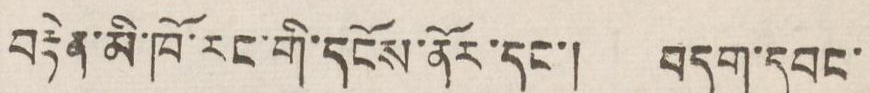བརྟེན་མི་ཁོ་རང་གི་དངོས་ནོར་དང་། བདག་དབང་
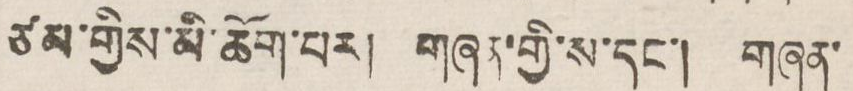ཙམ་གྱིས་མི་ཆོག་པར། གཞན་གྱི་ས་དང་། གཞན་
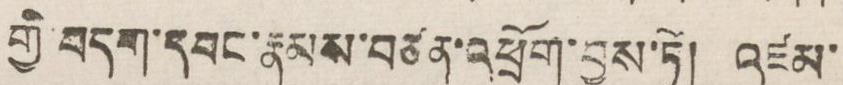གྱི བདག་དབང་རྣམས་བཙན་འཕྲོག་བྱས་ཏེ། འཛམ་
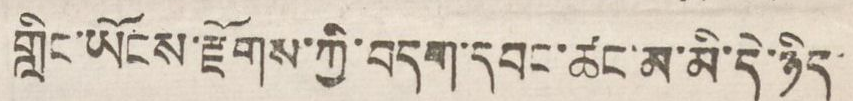གླིང་ཡོངས་རྫོགས་ཀྱི་བདག་དབང་ཚང་མ་མི་དེ་ཉིད་
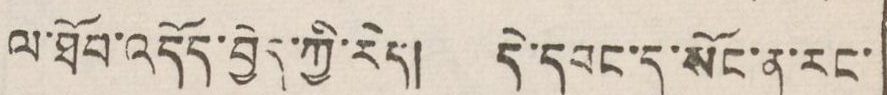ལ་ཐོབ་འདོད་བྱེད་ཀྱི་རེད། དེ་དབང་དུ་སོང་ན་རང་
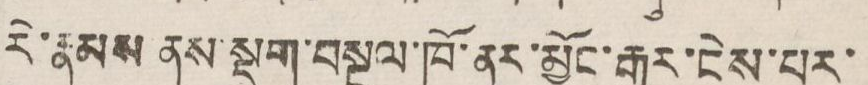རེ་རྣམས ནས་སྡུག་བསྔལ་ཁོ་ནར་མྱོང་རྒྱུར་ངེས་པར་
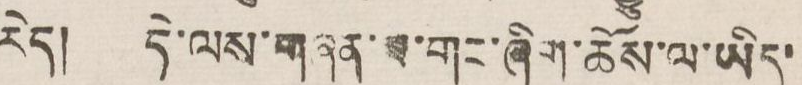རེད། དེ་ལས་གཞན་ཐ་གང་ཞིག་ཆོས་ལ་ཡིད་
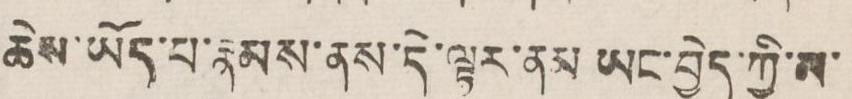ཆེས་ཡོད་པ་རྣམས་ནས་དེ་ལྟར་ནམ ཡང་བྱེད་ཀྱི་མ་
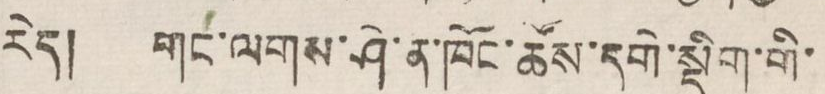རེད། གང་ལགས་ཤེ་ན་ཁོང་ཚོས་དགེ་སྡིག་གི་
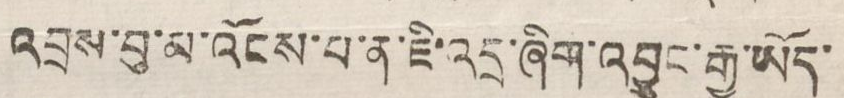འབྲས་བུ་མ་འོངས་པ་ན་ཇི་འདྲ་ཞིག་འབྱུང་རྒྱུ་ཡོད་
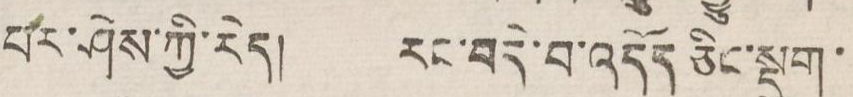པར་ཤེས་ཀྱི་རེད། རང་བདེ་བ་འདོད ཅིང་སྡུག་
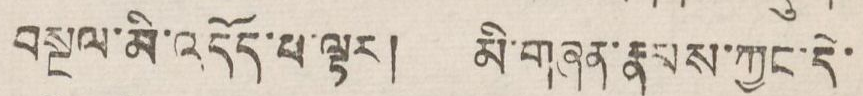བསྔལ་མི་འདོད་པ་ལྟར། མི་གཞན་རྣམས་ཀྱང་དེ་
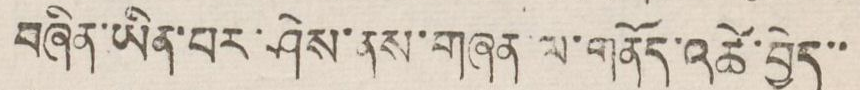བཞིན་ཡིན་པར་ཤེས་ནས་གཞན་ལ་གནོད་འཚེ་བྱེད་་
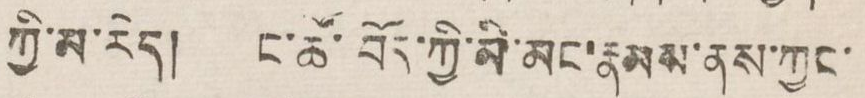ཀྱི་མ་རེད། ང་ཚོ་བོད་ཀྱི་མི་མང་རྣམས་ནས་ཀྱང་
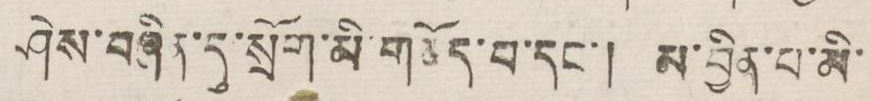ཤེས་བཞིན་དུ་སྲོག་མི་གཅོད་པ་དང་། མ་བྱིན་པ་མི་
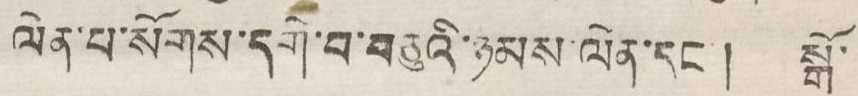ལེན་པ་སོགས་དགེ་བ་བཅུའི་ཉམས་ལེན་དང ། སྒོ་
